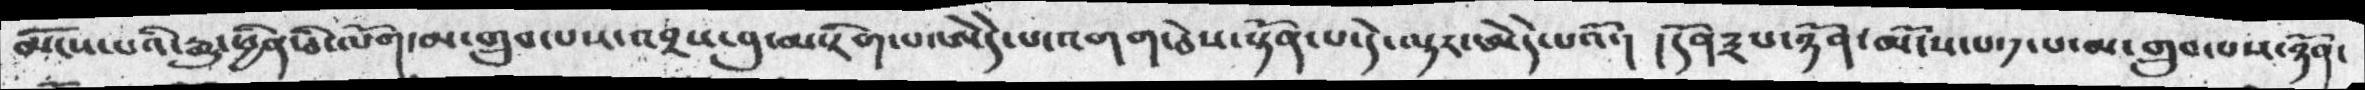མོངས་པའི་རྒྱུ་ཕྱིན་ཅི་ལོག་མ་གྲུབ་པས་འབྲས་བུ་མ་རིག་པ་ཨེདེ་པ་འགག་ཅེས་སྟོན་པ་དེ་ལྟར་ཨེདེ་པའོ་།  ། དོན༣པ་ཉོན་མོངས་པ་༡་པ་མ་གྲུབ་པས་ཉོན་
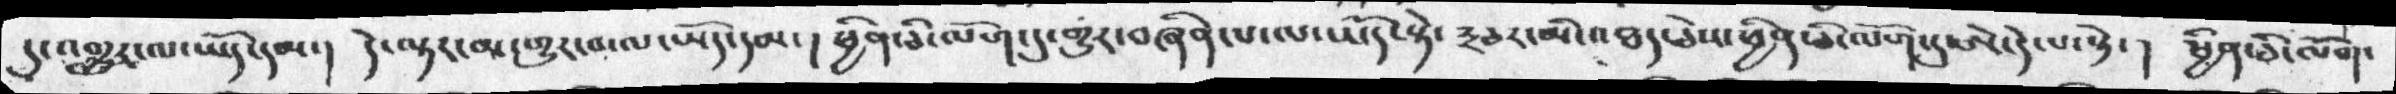དུ་འགྱུར་ལ་ཡོད་དམ་།  དེ་ལྟར་མ་གྱུར་བ་ལ་ཡོད་དམ་།  ཕྱིན་ཅི་ལོག་དུ་གྱུར་བཞིན་པ་ལ་ཡོད་སྟེ་༣ཅར་མི་འཐད་ཅེས་ཕྱིན་ཅི་ལོག་ཏུ་ཨེ་དེ་པ་སྟེ་ །  ཕྱིན་ཅི་ལོག་
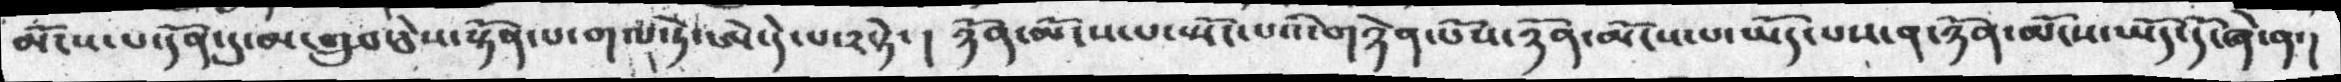མོངས་པ་དོན་དུ་མ་གྲུབ་ཅེས་སྟོན་པ་གལ་ཏེ་ཨེ་དེ་པ་༢སྟེ་ །  ཉོན་མོངས་པ་སྤོངས་པའི་གཉེན་པོས་ཉོན་མོངས་པ་ཡོད་པས་ན་ཉོན་མོངས་ཡོད་དོ་ཞེ་ན་།
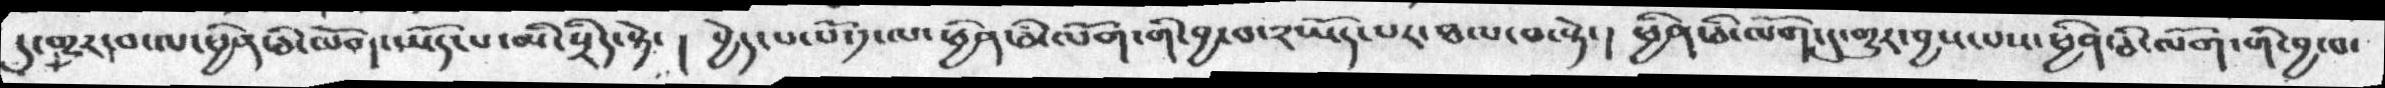དུ་གྱུར་བ་ལ་ཕྱིན་ཅི་ལོག་ཡོད་པ་མི་སྲིད་སྟེ་ ། བྱེད་པ་པོ་༡་ལ་ཕྱིན་ཅི་ལོག་གི་བྱ་བ་༢ཡོད་པར་ཐལ་བ་སྟེ་།  ཕྱིན་ཅི་ལོག་དུ་གྱུར་བྱས་པས་ཕྱིན་ཅི་ལོག་གི་བྱ་བ་
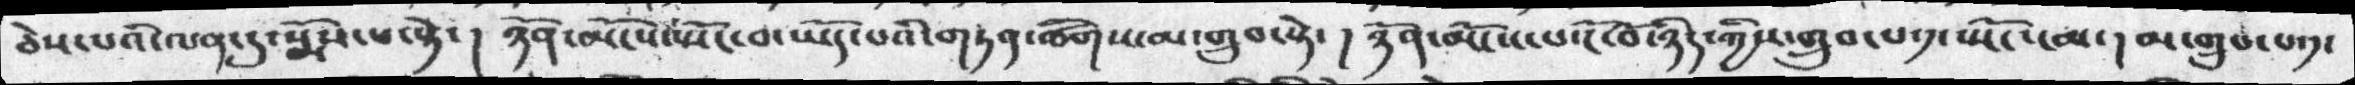ཅེས་པའི་ལན་དུ་སྨོས་པ་སྟེ་ ། ཉོན་མོངས་སྤོང་བ་ཡོད་པའི་གཏན་ཚིགས་མ་གྲུབ་སྟེ་ ། ཉོན་མོངས་པ་ངོ་བོ་ཉིད་ཀྱིས་གྲུབ་པ༡་སྤོང་ངམ་། མ་གྲུབ་པ༡་
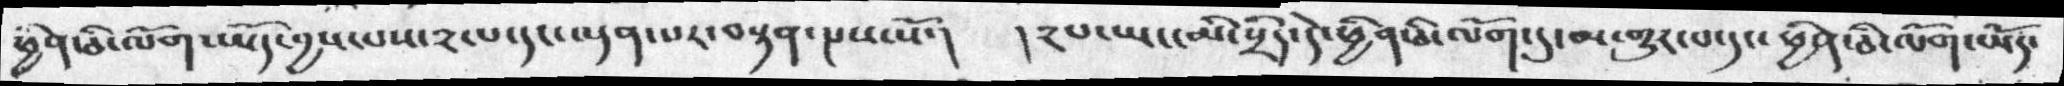ཕྱིན་ཅི་ལོག་ཡོད་བྱས་པས་༢་པ་དང་ལྡན་པར་བསྟན་སྔས་སོ་།  །༢པ་ཡང་མི་སྲིད་དེ་ཕྱིན་ཅི་མི་ལོག་དུ་མ་གྱུར་པ་དང་ ཕྱིན་ཅི་ལོག་ཡོད་
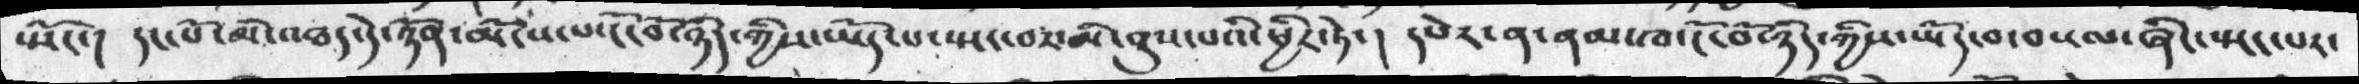སྤོང་།  དང་པོ་མི་འཐད་དེ་ཉོན་མོངས་པ་ངོ་བོ་ཉིད་ཀྱིས་ཡོད་པ་སྤང་བས་མི་ནུས་པའི་ཕྱིར་ཏེ་།  དཔེར་ན་ནམ་ཁ་ངོ་བོ་ཉིད་ཀྱིས་ཡོད་བ་བསལ་ཞིན་སྤང་པར་
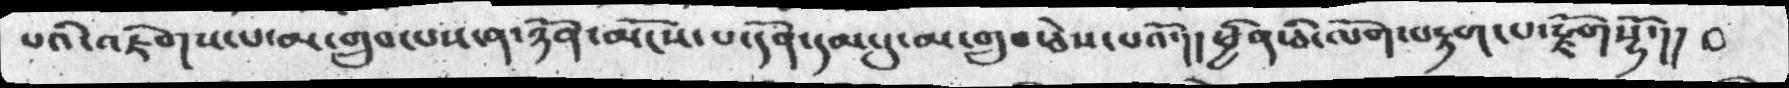པའི་འཇིགས་པ་མ་གྲུབ་པས་ན་ཉོན་མོངས་པ་དོན་དམ་དུ་མ་གྲུབ་ཅེས་པའོ་།།  ཕྱིན་ཅི་ལོག་བརྟག་པ་རྫོགསྷོ་།།
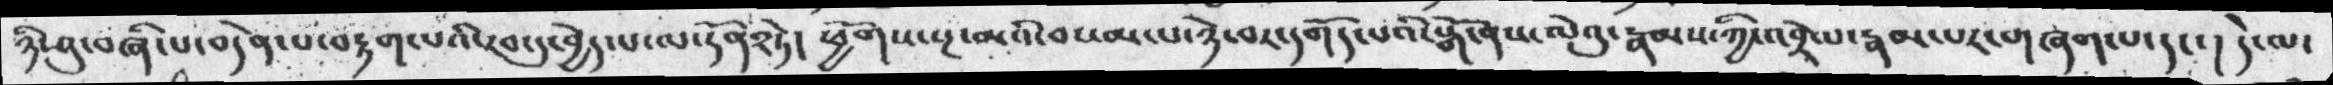ཉི་ཤུ་བཞི་པ་བདེན་པ་བརྟག་པའི་རབ་དུ་བྱེད་པ་ལ་དོན༢ཏེ། ཕྱོགས་སྔ་མའི་བསམ་པ་ཉེ་བར་དགོད་པའི་སྒོ་ནས་ལེའུ་རྣམས་ཀྱི་འབྲེ་པ་རྣམ་པར་གཞག་པ་དང་།  དེ་ལ་
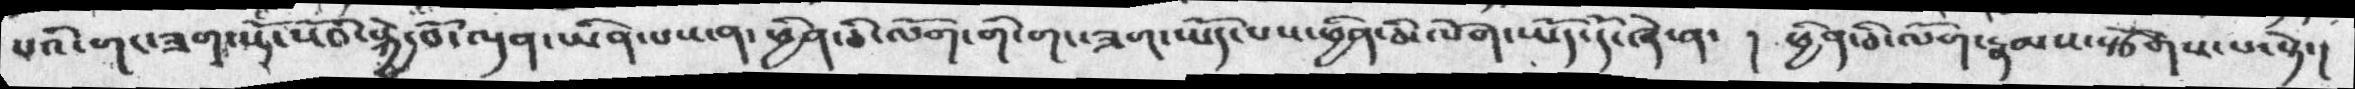པའི་གང་ཟག་སོ་སོའི་སྐྱེ་བོ་ལྡན་ཡིན་པས་ན་ཕྱིན་ཅི་ལོག་གི་གང་ཟག་ཡོད་པས་ཕྱིན་ཅི་ལོག་ཡོད་དོ་ཞེ་ན་ །  ཕྱིན་ཅི་ལོག་རྣམས་སྩོགས་པ་སྟེ་།
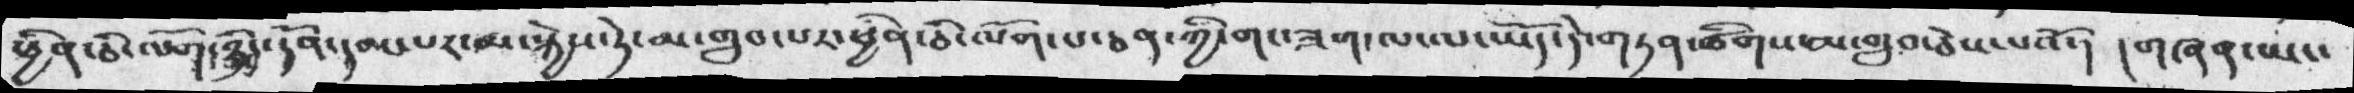ཕྱིན་ཅི་ལོག་ཉིད་དོན་དམ་པར་མ་སྐྱེས་ཏེ་མ་གྲུབ་པར་ཕྱིན་ཅི་ལོག་པ་ཅན་ཀྱི་གང་ཟག་ལ་ལ་ཡོད་དེ་གཏན་ཚིགས་མ་གྲུབ་ཅེས་པའོ་། ། གཞན་ཡང་
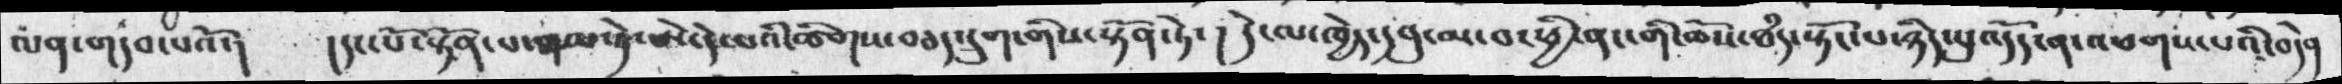ལན་གདབ་པའོ་།  །དང་པོ་སྟོན་པ་གལ་ཏེ་ཨེ་དེ་པའི་ཚིགས་བཅད་དྲུག་གིས་སྟོན་ཏེ་།  དེ་ལ་ཁྱེད་དབུ་མ་བ་ཕྱི་ནང་གི་ཆོས་ཐཾད་སྟོང་པ་ཉིད་སུ་འདོད་ན་འཕགས་པའི་བདེན
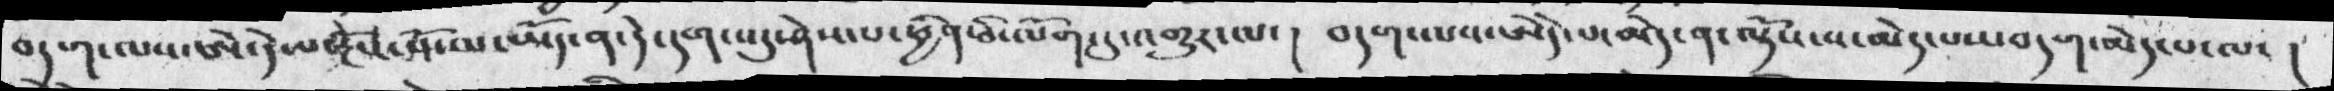བདག་ལས་ཨེ་དེ་པ་སྔོས་པོ་ལ་ཡོད་ན་དེ་དག་འདུ་ཤེས་པ་ཕྱིན་ཅི་ལོག་དུ་འགྱུར་ལ་།  བདག་ལས་ཨེདེ་པ་མེད་ན་ལྟོས་ས་མེད་པས་བདག་མེད་པ་ལ་ །
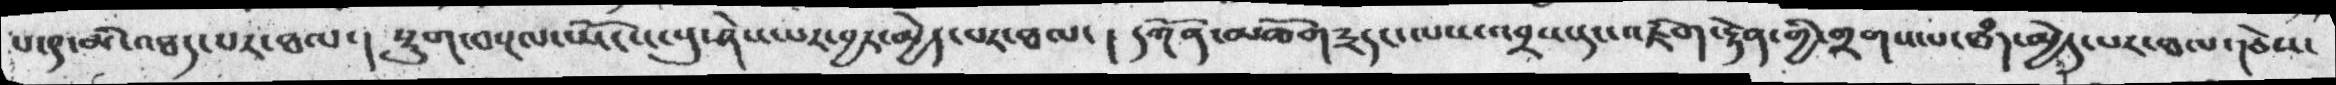པ་༩་མི་འཐད་པར་ཐལ་།  སྡུག་བསྔལ་ཡོངས་སུ་ཤེས་པར་བྱར་མྱེད་པར་ཐལ་།  དཀོན་མཆོག་༣དང་ལས་འབྲས་དང་འཇིག་རྟེན་གྱི་གྲགས་པ་ཐཾད་མྱེད་པར་ཐལ་།ཅེས་
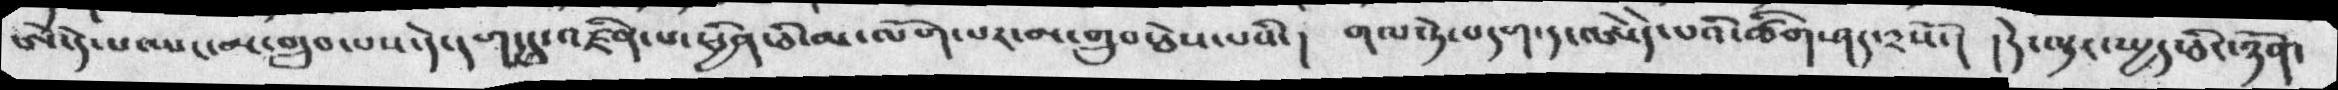ཨེ་དེ་པ་ཡང་མ་གྲུབ་པས་དེ་དག་དུ་འཛིན་པ་ཕྱིན་ཅི་མ་ལོག་པར་མ་གྲུབ་ཅེས་པའི་།  གལ་ཏེ་བདག་དང་ཨེདེ་པའི་ཚིག་ཤད་༢སོ་།  ། དེ་ལྟར་སྤྱད་ཅིང་ཉོན་
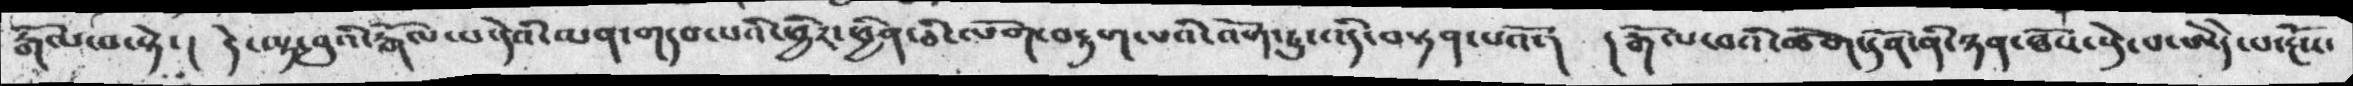རྒོལ་བ་སྟེ་།  དེ་ལྟ་བུའི་རྒོལ་པ་དེའི་ལན་གདབ་པའི་ཕྱིར་ཕྱིན་ཅི་ལོག་བརྟག་པའི་འོག་ཏུ་འདི་བསྟན་པའོ་།  ། རྒོལ་བའི་ཚིག་དོན་ནི་ཉན་ཐོས་སྡེ་པ་ཨེདེ་པ་རྔོས་
